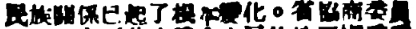民族關係已起了根本變化。省協商委員
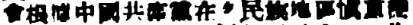會根據中國共產黨在各民族地區慎重推
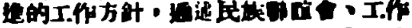進的工作方針，通過民族聯誼會、工作
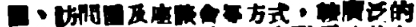團、訪問團及座談會等方式，較廣泛的
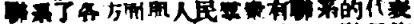聯系了各方面與人民羣衆有聯系的代表
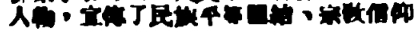任務，宣傳了民族平等團結、宗敎信仰
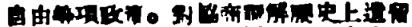自由等項政策。對協商調解歷史上遺留
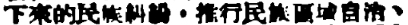下來的民族糾紛，推行民族區域自治、
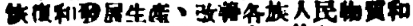恢復和發展生產、改善各族人民物質和
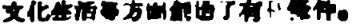文化生活等方面創造了有利條件。
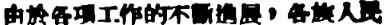由於各項工作的不斷進展，各族人民
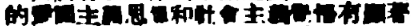的愛國主義思想和社會主義覺悟有顯著
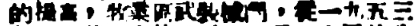的提高，牧業區武裝械鬥，從一九五三
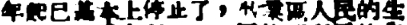年起已基本上停止了，牧業區人民的生
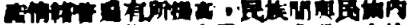產情緒普遍有所提高，民族間與民族內
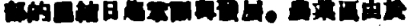部的團結日趨鞏固與發展。農業區由於
